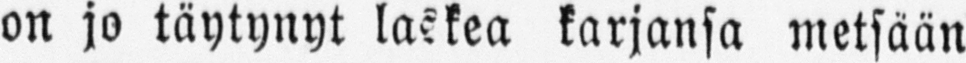on jo täytynyt laskea karjansa metsään
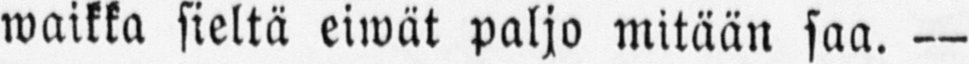waikka sieltä eiwät paljo mitään saa. —
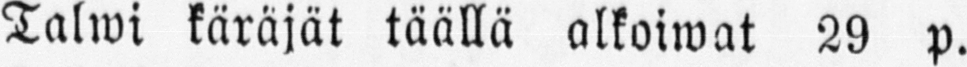Talwi käräjät täällä alkoiwat 29 p.
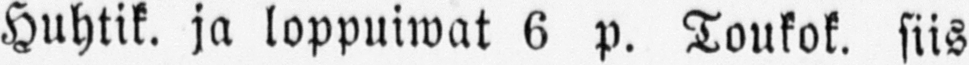Huhtik. ja loppuiwat 6 p. Toukok. siis
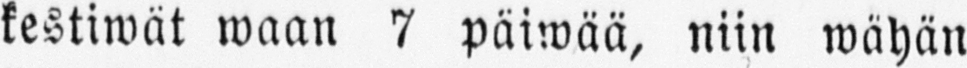kestiwät waan 7 päiwää, niin wähän
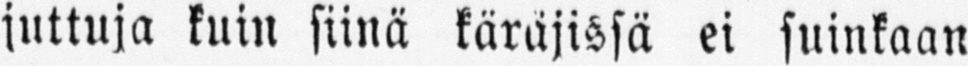juttuja kuin siinä käräjissä ei suinkaan
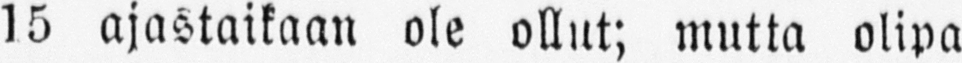15 ajastaikaan ole ollut; mutta olipa
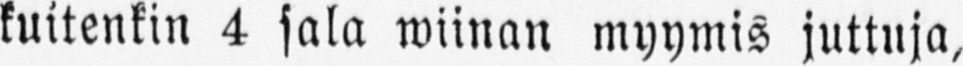kuitenkin 4 sala wiinan myymis juttuja,
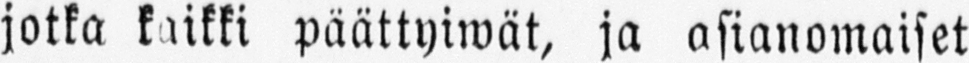jotka kaikki päättyiwät, ja asianomaiset
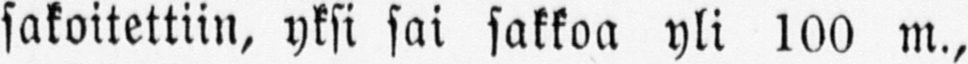sakoitettiin, yksi sai sakkoa yli 100 m.,
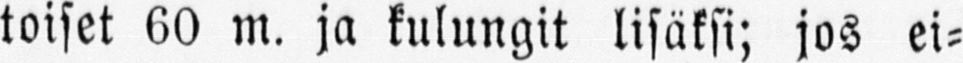toiset 60 m. ja kulungit lisäksi; jos ei-
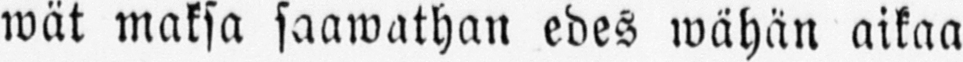wät maksa saawathan edes wähän aikaa
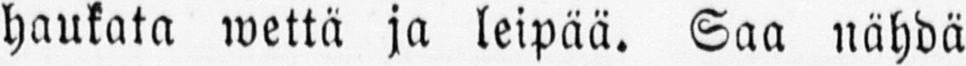haukata wettä ja leipää. Saa nähdä
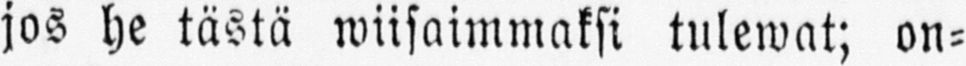jos he tästä wiisaimmaksi tulewat; on-
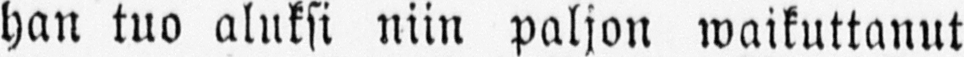han tuo aluksi niin paljon waikuttanut
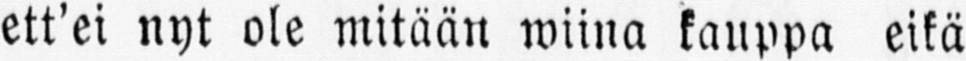ett'ei nyt ole mitään wiina kauppa eikä
